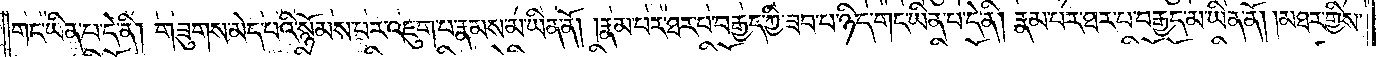གང་ཡིན་པ་དེ་ནི། གཟུགས་མེད་པའི་སྙོམས་པར་འཇུག་པ་རྣམས་མ་ཡིན་ནོ། །རྣམ་པར་ཐར་པ་བརྒྱད་ཀྱི་ཟབ་པ་ཉིད་གང་ཡིན་པ་དེ་ནི། རྣམ་པར་ཐར་པ་བརྒྱད་མ་ཡིན་ནོ། །མཐར་གྱིས་
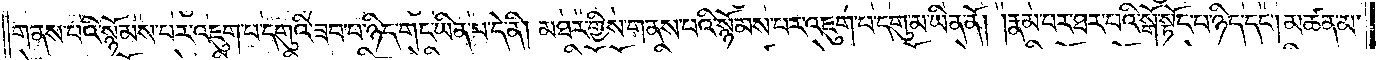གནས་པའི་སྙོམས་པར་འཇུག་པ་དགུའི་ཟབ་པ་ཉིད་གང་ཡིན་པ་དེ་ནི། མཐར་གྱིས་གནས་པའི་སྙོམས་པར་འཇུག་པ་དགུ་མ་ཡིན་ནོ། །རྣམ་པར་ཐར་པའི་སྒོ་སྟོང་པ་ཉིད་དང༌། མཚན་མ་
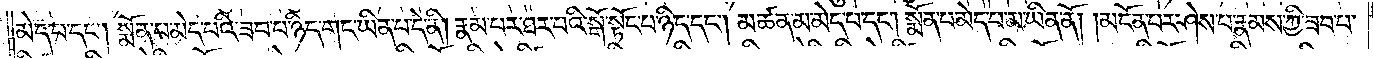མེད་པ་དང༌། སྨོན་པ་མེད་པའི་ཟབ་པ་ཉིད་གང་ཡིན་པ་དེ་ནི། རྣམ་པར་ཐར་པའི་སྒོ་སྟོང་པ་ཉིད་དང༌། མཚན་མ་མེད་པ་དང༌། སྨོན་པ་མེད་པ་མ་ཡིན་ནོ། །མངོན་པར་ཤེས་པ་རྣམས་ཀྱི་ཟབ་པ་
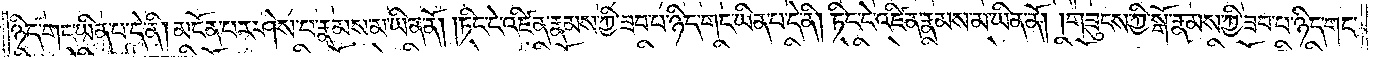ཉིད་གང་ཡིན་པ་དེ་ནི། མངོན་པར་ཤེས་པ་རྣམས་མ་ཡིན་ནོ། །ཏིང་ངེ་འཛིན་རྣམས་ཀྱི་ཟབ་པ་ཉིད་གང་ཡིན་པ་དེ་ནི། ཏིང་ངེ་འཛིན་རྣམས་མ་ཡིན་ནོ། །གཟུངས་ཀྱི་སྒོ་རྣམས་ཀྱི་ཟབ་པ་ཉིད་གང་
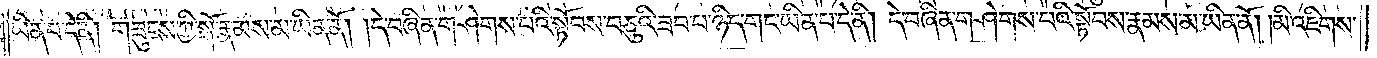ཡིན་པ་དེ་ནི། གཟུངས་ཀྱི་སྒོ་རྣམས་མ་ཡིན་ནོ། །དེ་བཞིན་གཤེགས་པའི་སྟོབས་བཅུའི་ཟབ་པ་ཉིད་གང་ཡིན་པ་དེ་ནི། དེ་བཞིན་གཤེགས་པའི་སྟོབས་རྣམས་མ་ཡིན་ནོ། །མི་འཇིགས་
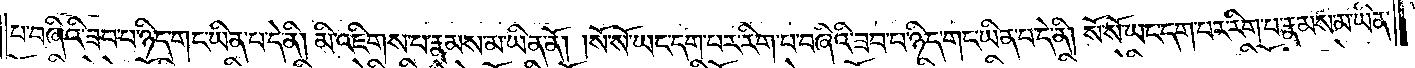པ་བཞིའི་ཟབ་པ་ཉིད་གང་ཡིན་པ་དེ་ནི། མི་འཇིགས་པ་རྣམས་མ་ཡིན་ནོ། །སོ་སོ་ཡང་དག་པར་རིག་པ་བཞིའི་ཟབ་པ་ཉིད་གང་ཡིན་པ་དེ་ནི། སོ་སོ་ཡང་དག་པར་རིག་པ་རྣམས་མ་ཡིན་
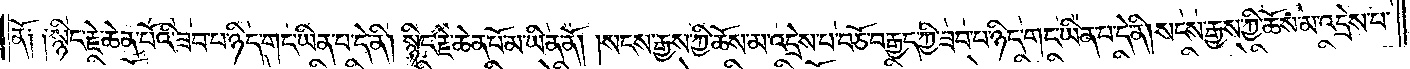ནོ༑ ༑སྙིང་རྗེ་ཆེན་པོའི་ཟབ་པ་ཉིད་གང་ཡིན་པ་དེ་ནི། སྙིང་རྗེ་ཆེན་པོ་མ་ཡིན་ནོ། །སངས་རྒྱས་ཀྱི་ཆོས་མ་འདྲེས་པ་བཅོ་བརྒྱད་ཀྱི་ཟབ་པ་ཉིད་གང་ཡིན་པ་དེ་ནི། སངས་རྒྱས་ཀྱི་ཆོས་མ་འདྲེས་པ་
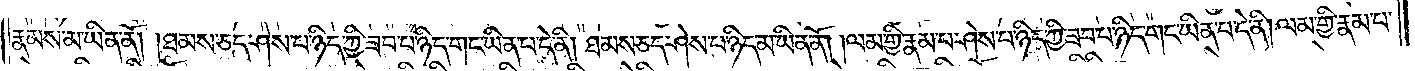རྣམས་མ་ཡིན་ནོ། །ཐམས་ཅད་ཤེས་པ་ཉིད་ཀྱི་ཟབ་པ་ཉིད་གང་ཡིན་པ་དེ་ནི། ཐམས་ཅད་ཤེས་པ་ཉིད་མ་ཡིན་ནོ། །ལམ་གྱི་རྣམ་པ་ཤེས་པ་ཉིད་ཀྱི་ཟབ་པ་ཉིད་གང་ཡིན་པ་དེ་ནི། ལམ་གྱི་རྣམ་པ་
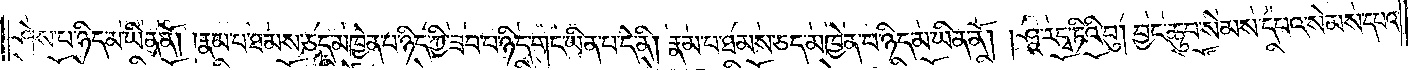ཤེས་པ་ཉིད་མ་ཡིན་ནོ། །རྣམ་པ་ཐམས་ཅད་མཁྱེན་པ་ཉིད་ཀྱི་ཟབ་པ་ཉིད་གང་ཡིན་པ་དེ་ནི། རྣམ་པ་ཐམས་ཅད་མཁྱེན་པ་ཉིད་མ་ཡིན་ནོ། །ཤཱ་ར་དྭ་ཏིའི་བུ། བྱང་ཆུབ་སེམས་དཔའ་སེམས་དཔའ་
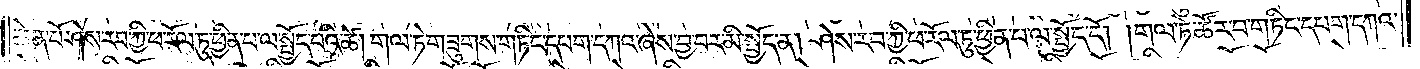ཆེན་པོ་ཤེས་རབ་ཀྱི་ཕ་རོལ་ཏུ་ཕྱིན་པ་ལ་སྤྱོད་པའི་ཚེ། གལ་ཏེ་གཟུགས་གཏིང་དཔག་དཀའ་ཞེས་བྱ་བར་མི་སྤྱོད་ན། ཤེས་རབ་ཀྱི་ཕ་རོལ་ཏུ་ཕྱིན་པ་ལ་སྤྱོད་དོ། །གལ་ཏེ་ཚོར་བ་གཏིང་དཔག་དཀའ་
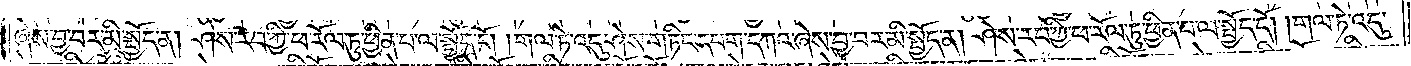ཞེས་བྱ་བར་མི་སྤྱོད་ན། ཤེས་རབ་ཀྱི་ཕ་རོལ་ཏུ་ཕྱིན་པ་ལ་སྤྱོད་དོ། །གལ་ཏེ་འདུ་ཤེས་གཏིང་དཔག་དཀའ་ཞེས་བྱ་བར་མི་སྤྱོད་ན། ཤེས་རབ་ཀྱི་ཕ་རོལ་ཏུ་ཕྱིན་པ་ལ་སྤྱོད་དོ། །གལ་ཏེ་འདུ་
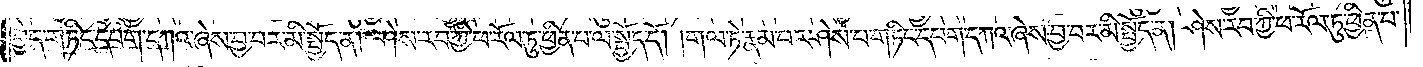བྱེད་གཏིང་དཔག་དཀའ་ཞེས་བྱ་བར་མི་སྤྱོད་ན། ཤེས་རབ་ཀྱི་ཕ་རོལ་ཏུ་ཕྱིན་པ་ལ་སྤྱོད་དོ། །གལ་ཏེ་རྣམ་པར་ཤེས་པ་གཏིང་དཔག་དཀའ་ཞེས་བྱ་བར་མི་སྤྱོད་ན། ཤེས་རབ་ཀྱི་ཕ་རོལ་ཏུ་ཕྱིན་པ་
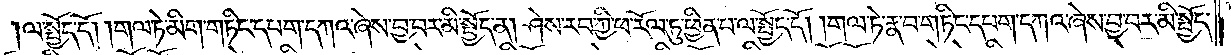ལ་སྤྱོད་དོ། །གལ་ཏེ་མིག་གཏིང་དཔག་དཀའ་ཞེས་བྱ་བར་མི་སྤྱོད་ན། ཤེས་རབ་ཀྱི་ཕ་རོལ་ཏུ་ཕྱིན་པ་ལ་སྤྱོད་དོ། །གལ་ཏེ་རྣ་བ་གཏིང་དཔག་དཀའ་ཞེས་བྱ་བར་མི་སྤྱོད་
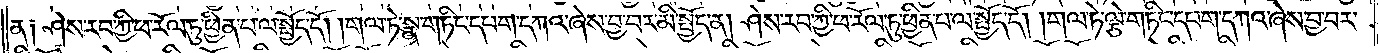ན༑ ཤེས་རབ་ཀྱི་ཕ་རོལ་ཏུ་ཕྱིན་པ་ལ་སྤྱོད་དོ། །གལ་ཏེ་སྣ་གཏིང་དཔག་དཀའ་ཞེས་བྱ་བར་མི་སྤྱོད་ན། ཤེས་རབ་ཀྱི་ཕ་རོལ་ཏུ་ཕྱིན་པ་ལ་སྤྱོད་དོ། །གལ་ཏེ་ལྕེ་གཏིང་དཔག་དཀའ་ཞེས་བྱ་བར་
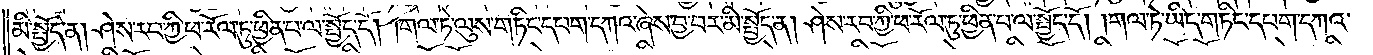མི་སྤྱོད་ན། ཤེས་རབ་ཀྱི་ཕ་རོལ་ཏུ་ཕྱིན་པ་ལ་སྤྱོད་དོ། །གལ་ཏེ་ལུས་གཏིང་དཔག་དཀའ་ཞེས་བྱ་བར་མི་སྤྱོད་ན། ཤེས་རབ་ཀྱི་ཕ་རོལ་ཏུ་ཕྱིན་པ་ལ་སྤྱོད་དོ། །གལ་ཏེ་ཡིད་གཏིང་དཔག་དཀའ་
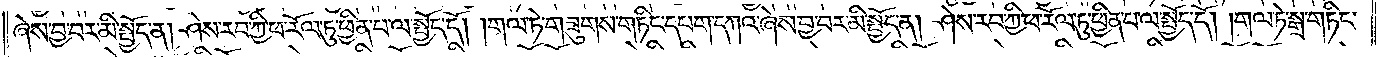ཞེས་བྱ་བར་མི་སྤྱོད་ན། ཤེས་རབ་ཀྱི་ཕ་རོལ་ཏུ་ཕྱིན་པ་ལ་སྤྱོད་དོ། །གལ་ཏེ་གཟུགས་གཏིང་དཔག་དཀའ་ཞེས་བྱ་བར་མི་སྤྱོད་ན། ཤེས་རབ་ཀྱི་ཕ་རོལ་ཏུ་ཕྱིན་པ་ལ་སྤྱོད་དོ། །གལ་ཏེ་སྒྲ་གཏིང་
